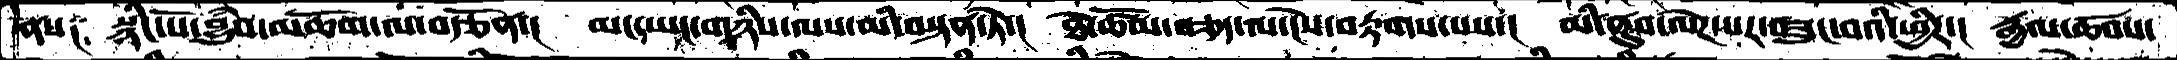ནས༑  སྙིང་པོ་བྱུཾབ་མཆོག་ལ་བརྩོན་།  མང་ཡང་གཉིསལས་མི་བསྟན་ཏེ་།  ཐེ་ཚོམ་བཅད་ལ་ངེས་བརྟགས་པས་།  མི་ནུབ་ལེཌ་པར་བཟུང་པའི་ཕྱིར་།  རྒྱལ་ཚབས་
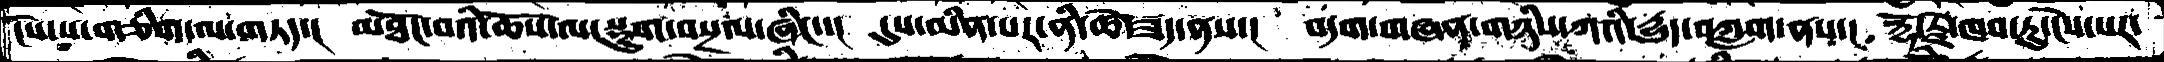ངེས་པ་གཅིག་ལ་གཏད་།  མཐོང་བའི་ཆོས་ལ་སྡུག་བསྔལ་ཞིང་་།  དུས་མིན་པར་ནི་ཚེ་ཟད་ནས་།  བདག་གཞན་གཉིས་ཀའི་དྱུད་བཀླག་ནས་།  རྡོ་རྗེ་ཁབ་ཏུ་ངེས་པར་
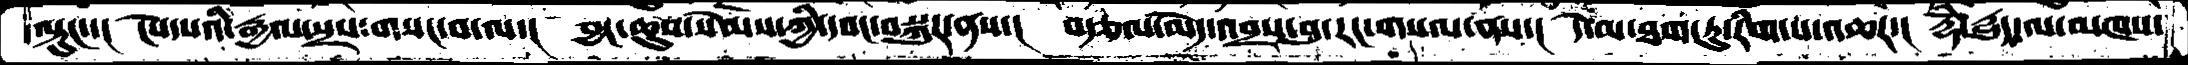ལྟུང་་།  ངེས་པའི་རྒྱལ་སྲས་གསང་བ་ལ་།  བྱང་ཆུབ་སེམས་ཀྱི་དབང་བསྐུར་ནས་།  བརྩལ་མེད་འབྲས་བུ་རང་གསལ་ནས་།  དེ་མ་ཐག་ཏུ་རིག་པ་འཆར་།  རྡོེ་རྒྱུད་ལ་མཁས་
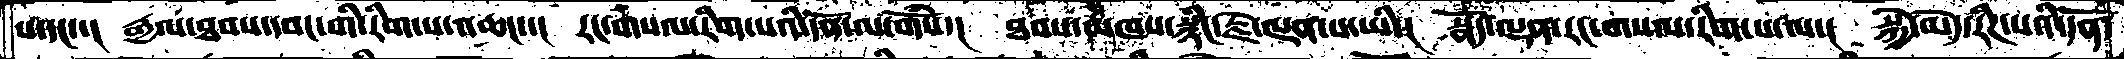པ་དང་་།  རྒྱལ་ཐབས་དབང་གི་རིག་པ་འཆང་་།  རང་གསལ་རིག་པའི་དོན་ལ་གོཾས་།  ཐབས་མཁས་སྙིང་རྗེ་ལྡན་པ་ཡི་།  སྣོད་ལྡན་རང་གསལ་རིག་པ་ལ་།།  སྐྱེ་མེད་རིཌ་པའི་དོན་
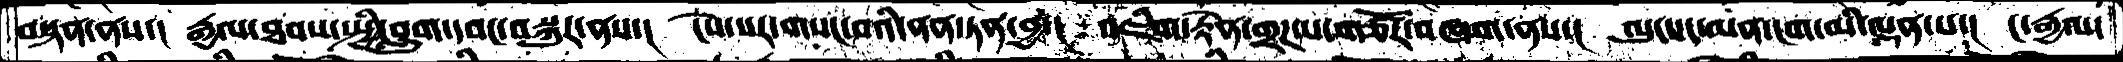བསྟན་ནས་།   རྒྱལ་ཐབས་སྤྱི་བླུག་དབང་བསྐུར་ནས་།  ངེས་པར་གསང་བའི་ནན་ཏན་བྱ་།  འཇིག་རྟེན་གྲཌ་པ་གཙོར་བཞག་ནས་།  ལུང་དང་མན་ངག་མི་ལྡན་པ་།  ང་རྒྱལ་
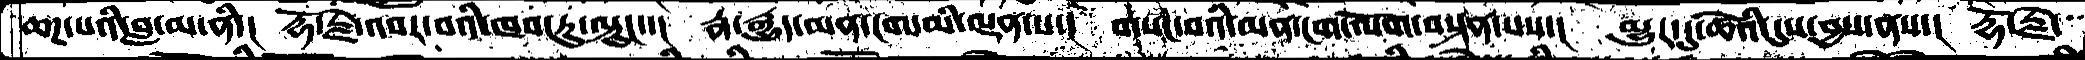ཆཌ་པའི་བླ་མ་ནི་།  རྡོ་རྗེ་འབར་བའི་ཁབ་ཏུ་ལྟུང་་།  རྣ་རྒྱུད་མན་ངག་མི་ལྡན་པ་།  གསང་བའི་མན་ངག་ལོག་བསྟན་པས་།  མྱུར་དུ་ཚེའི་དུས་བྱས་ནས་།  རྡོ་རྗེ་
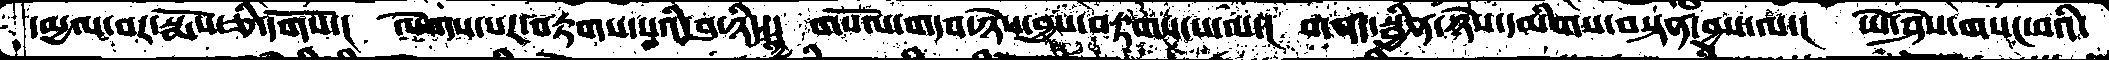དམྱལ་བར་སྨོས་ཅི་དགོས་།  ལེགས་པར་བརྟགས་པའི་བུ་ཉིད་ཀྱི་།  གསོལ་གདབ་ཉེས་བྱས་བརྟགས་པ་ལ་།  གནད་སྦྱིན་ཉེས་དམིགས་བསྟན་བྱས་ལ་།  ཡེ་ཤེས་གསང་བའི་
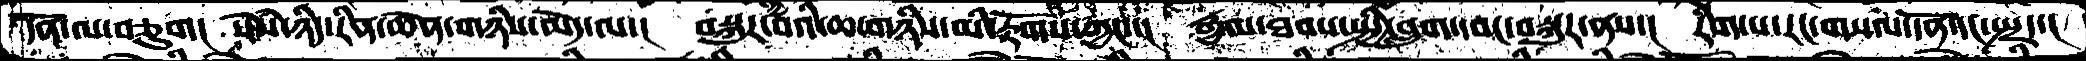དོན་ལ་བཅུག།  སེཾས་ཉིད་རིན་ཆེན་གཉིས་མེད་ལ་།  བསྐུར་བའི་ཆ་གཉིས་མི་རྟོགས་ཀྱང་།  རྒྱལ་ཐབས་སྤྱི་བླུག་དབང་བསྐུར་ནས་།  རིག་པ་རང་གསལ་དོན་དང་སྤྲད་།
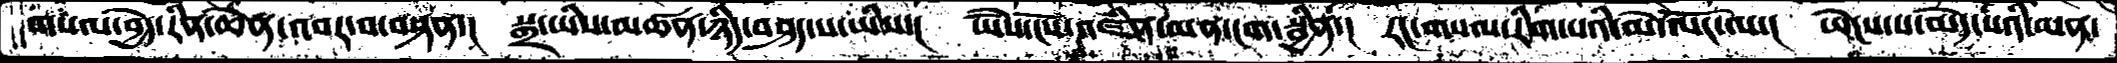གསལ་བྱེད་རིན་ཆེན་འབར་བ་བསྟན་།  སྒྲ་ཡིས་མཚན་ཉིད་བཤད་པ་ཡིས་།  ཡཻས་ངོས་འཛིན་མན་ངག་སྦྱིན་།  རང་གསལ་རིག་པའི་མེ་ལོང་ལ་།  ཡེངས་པ་མེད་པའི་མན་
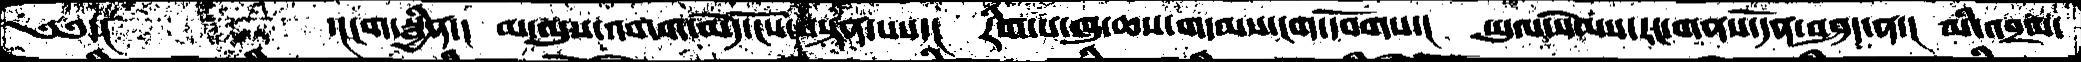༄༅་།  ་།ངག་སྦྱིན་།  མ་ལུས་འགག་མེད་དངོས་བསྟན་པས་།  རིག་པ་ཁུ་ཆས་གདམས་ངག་དབོགས་།  ཡུལ་སེམས་རང་གནས་དོན་བཤད་ན་།  མི་འབྲལ་
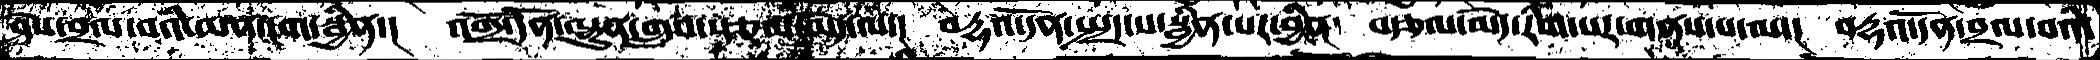ཤེས་བྲལ་བའི་མན་ངག་སྦྱིན་།  འགྲོ་དོན་ལྷུན་གྲུབ་སྩལ་མེད་ལ་།  བརྡའ་དོན་སྤྲད་པ་སྦྱིན་པར་བྱིན་  བརྩལ་མེད་རིག་པར་གནས་པ་ལ་།  བརྡའ་དོན་བྲལ་བའི་
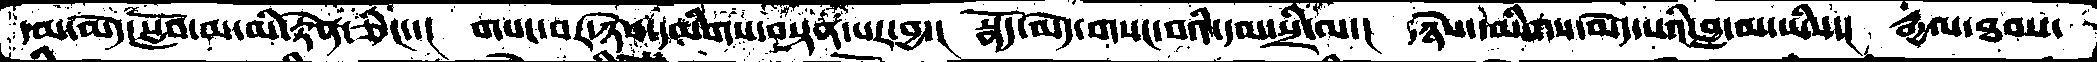དམ་མེད་སློབ་མ་མི་རྟེན་ཅིང་་།  གསང་བར་ཉེས་དམིགས་བསྟན་པར་བྱ་།  སྣོད་མེད་གསང་བའི་དམ་སྲི་ལ་།  ཉེས་དམིགས་མེད་པའི་བླ་མ་ཡིས་།  རྒྱལ་ཐབས་
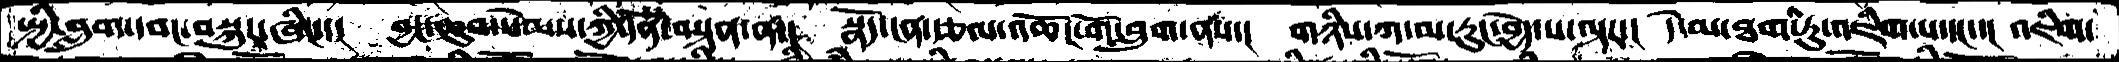སྤྱི་བླུག་དབང་བསྐུར་ཞིང་་།  བྱང་ཆུབ་སེམས་ཀྱི་དོན་བསྟན་ན་།  སྣོད་ངན་རྩལ་འཆོར་གོ་བླུག་ནས་།  གཉིས་ཀ་མ་རུང་བྱེད་པ་ལྟར་།  དེ་མ་ཐག་ཏུ་འཇིག་པ་དང་་།  འཇིག་
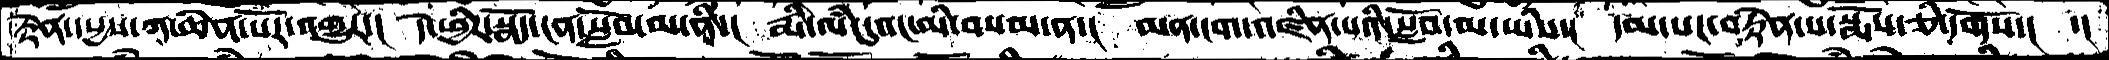རྟེན་དཔྱས་ཀ་ཆེན་པོར་འགྱུར་།  དེ་ཕྱིར་སྣོད་ངན་སློབ་མ་ནི་།  རྨི་ལཾ་དུའང་མི་བསམ་ན་།  མན་ངག་འཛིན་པའི་སློབ་མ་ཡིས་།  དམ་པར་བརྟེན་པ་སྨོས་ཅི་དགོས་།  ་།
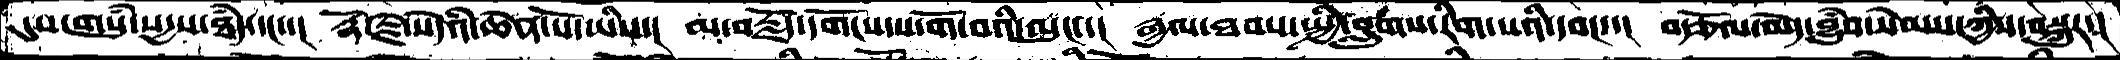དུས་གསུཾ་སདྱས་ཐཾད་དང་་།   རྡོ་རྗེ་སེདཾའ་ཆེན་པོ་ཡིས་།  མ་བརྗོད་དགོངས་པ་གོ་བའི་ལུང་་།  རྒྱལ་ཐབས་སྤྱི་བླུགས་རིག་པའི་དབང་་།   བརྩོལ་མེད་བྱུཾབ་སེམས་ཀྱིས་བསྐུར་།
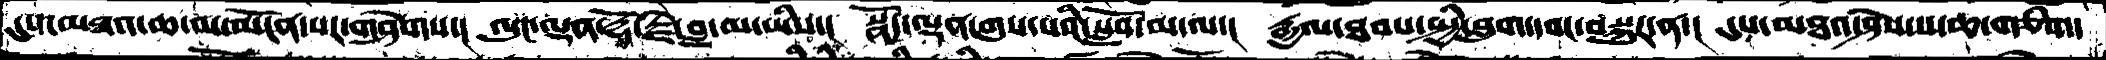དུས་མཐའ་ཆ་མ་མངོན་པར་གཤེགས་།  ལུང་ལྡན་རྡོ་རྗེ་བླ་མ་ཡིས་།  སྣོད་ལྡན་གུས་པའི་སློབ་མ་ལ་།  རྒྱལ་ཐབས་སྤྱི་བླུག་དབང་བསྐུར་ན་།  དུས་མཐའ་ཤེས་པ་ཆ་གཅིག་
